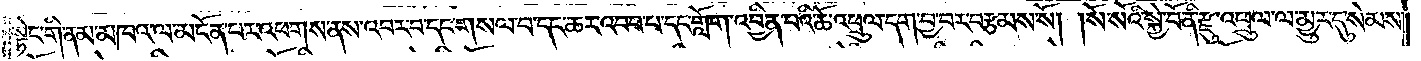སྟེང་གི་ནམ་མཁའ་ལ་མངོན་པར་འཕགས་ནས་འབར་བ་དང་གསལ་བ་དང་ཆར་འབབ་པ་དང་གློག་འབྱིན་པའི་ཆོ་འཕྲུལ་དག་བྱ་བར་བརྩམས་སོ། །སོ་སོའི་སྐྱེ་བོ་ནི་རྫུ་འཕྲུལ་ལ་མྱུར་དུ་སེམས་
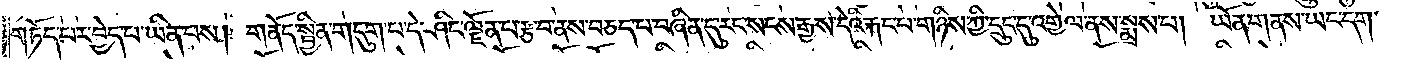གཏོད་པར་བྱེད་པ་ཡིན་པས། གནོད་སྦྱིན་གདུག་པ་དེ་ཤིང་ལྗོན་པ་རྩ་བ་ནས་བཅད་པ་བཞིན་དུ་རང་སངས་རྒྱས་དེའི་རྐང་པ་གཉིས་ཀྱི་དྲུང་དུ་འགྱེལ་ནས་སྨྲས་པ། ཡོན་གནས་ཡང་དག་
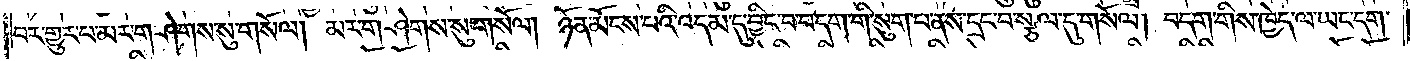པར་གྱུར་པ་མར་གཤེགས་སུ་གསོལ། མར་གཤེགས་སུ་གསོལ། ཉོན་མོངས་པའི་འདམ་དུ་བྱིང་བ་བདག་གི་སུག་པ་ནས་དྲང་བ་སྩལ་དུ་གསོལ། བདག་གིས་ཁྱེད་ལ་ཡང་དག་
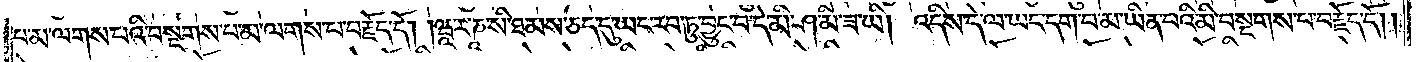པ་མ་ལགས་པའི་བསྔགས་པ་མ་ལགས་པ་བརྗོད་དོ། །ཝཱ་ར་ཎཱ་སི་ཐམས་ཅད་དུ་ཡང་རབ་ཏུ་བྱུང་བ་དེ་མི་ཤ་མི་ཟ་ཡི། འདིས་དེ་ལ་ཡང་དག་པ་མ་ཡིན་པའི་མི་བསྔགས་པ་བརྗོད་དོ། །
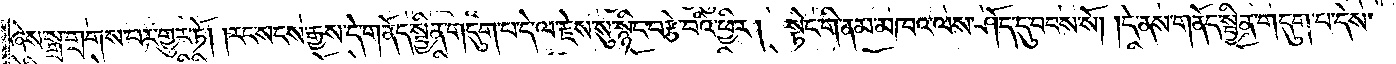ཞེས་སྒྲ་གྲགས་པར་གྱུར་ཏོ། །རང་སངས་རྒྱས་དེ་གནོད་སྦྱིན་གདུག་པ་དེ་ལ་རྗེས་སུ་སྙིང་བརྩེ་བའི་ཕྱིར། སྟེང་གི་ནམ་མཁའ་ལས་ཤོད་དུ་བབས་སོ། །དེ་ནས་གནོད་སྦྱིན་གདུག་པ་དེས་
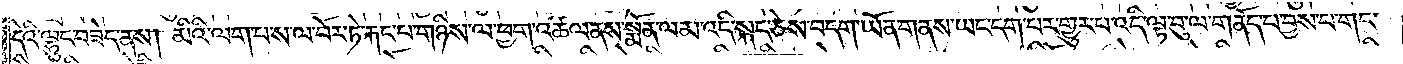དེའི་ལྷུང་བཟེད་ནས། མིའི་ལག་པ་ས་ལ་བོར་ཏེ་རྐང་པ་གཉིས་ལ་ཕྱག་འཚལ་ནས་སྨོན་ལམ་འདི་སྐད་ཅེས་བདག་ཡོན་གནས་ཡང་དག་པར་གྱུར་པ་འདི་ལྟ་བུ་ལ་གནོད་པ་བྱས་པ་གང་
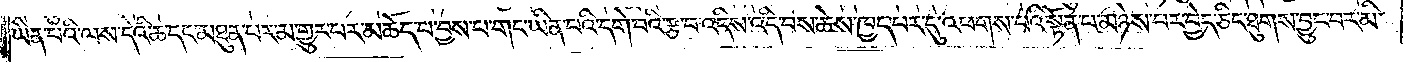ཡིན་པའི་ལས་དེའི་ཆ་དང་མཐུན་པར་མ་གྱུར་བར་མཆོད་པ་བྱས་པ་གང་ཡིན་པའི་དགེ་བའི་རྩ་བ་འདིས་འདྲི་བས་ཆེས་ཁྱད་པར་དུ་འཕགས་པའི་སྟོན་པ་མཉེས་པར་བྱེད་ཅིང་ཐུགས་བྱུང་བར་མི་
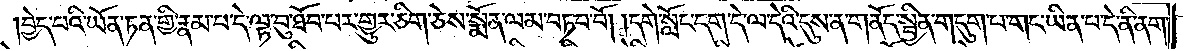བྱེད་པའི་ཡོན་ཏན་གྱི་རྣམ་པ་དེ་ལྟ་བུ་ཐོབ་པར་གྱུར་ཅིག་ཅེས་སྨོན་ལམ་བཏབ་བོ། །དགེ་སློང་དག་དེ་ལ་དེའི་དུས་ན་གནོད་སྦྱིན་གདུག་པ་གང་ཡིན་པ་དེ་ནི་ནག་
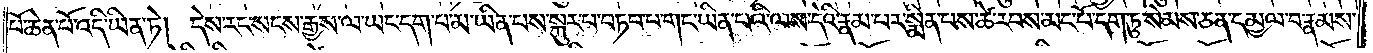པོ་ཆེན་པོ་འདི་ཡིན་ཏེ། དེས་རང་སངས་རྒྱས་ལ་ཡང་དག་པ་མ་ཡིན་པས་སྐུར་པ་བཏབ་པ་གང་ཡིན་པའི་ལས་དེའི་རྣམ་པར་སྨིན་པས་ཚེ་རབས་མང་པོ་དག་ཏུ་སེམས་ཅན་དམྱལ་བ་རྣམས་
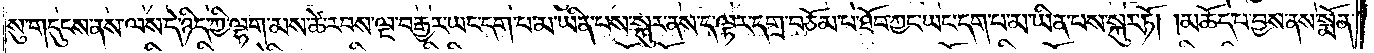སུ་གདུངས་ནས་ལས་དེ་ཉིད་ཀྱི་ལྷག་མས་ཚེ་རབས་ལྔ་བརྒྱར་ཡང་དག་པ་མ་ཡིན་པས་སྐུར་ནས་ད་ལྟར་དགྲ་བཅོམ་པ་ཐོབ་ཀྱང་ཡང་དག་པ་མ་ཡིན་པས་སྐུར་ཏོ། །མཆོད་པ་བྱས་ནས་སྨོན་
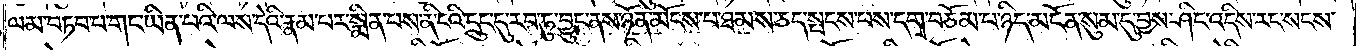ལམ་བཏབ་པ་གང་ཡིན་པའི་ལས་དེའི་རྣམ་པར་སྨིན་པས་ནི་ངའི་དྲུང་དུ་རབ་ཏུ་བྱུང་ནས་ཉོན་མོངས་པ་ཐམས་ཅད་སྤངས་པས་དགྲ་བཅོམ་པ་ཉིད་མངོན་སུམ་དུ་བྱས་ཤིང་འདིས་རང་སངས་
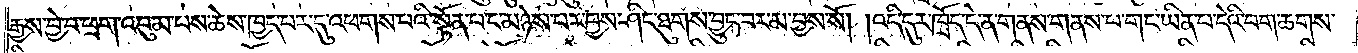རྒྱས་བྱེ་བ་ཕྲག་འབུམ་པས་ཆེས་ཁྱད་པར་དུ་འཕགས་པའི་སྟོན་པ་ང་མཉེས་པར་བྱས་ཤིང་ཐུགས་བྱུང་བར་མ་བྱས་སོ། །འདི་དུར་ཁྲོད་དེ་ན་གནས་གནས་པ་གང་ཡིན་པ་དེའི་བག་ཆགས་
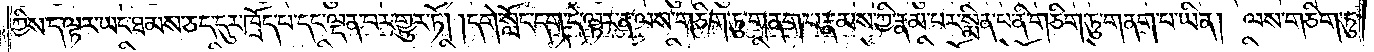ཀྱིས་ད་ལྟར་ཡང་ཐམས་ཅད་དུར་ཁྲོད་པ་དང་ལྡན་པར་གྱུར་ཏོ། །དགེ་སློང་དག་དེ་ལྟར་ན་ལས་གཅིག་ཏུ་གནག་པ་རྣམས་ཀྱི་རྣམ་པར་སྨིན་པ་ནི་གཅིག་ཏུ་གནག་པ་ཡིན། ལས་གཅིག་ཏུ་
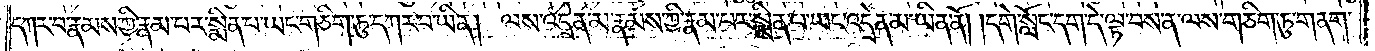དཀར་བ་རྣམས་ཀྱི་རྣམ་པར་སྨིན་པ་ཡང་གཅིག་ཏུ་དཀར་བ་ཡིན། ལས་འདྲེན་མ་རྣམས་ཀྱི་རྣམ་པར་སྨིན་པ་ཡང་འདྲེན་མ་ཡིན་ནོ། །དགེ་སློང་དག་དེ་ལྟ་བས་ན་ལས་གཅིག་ཏུ་གནག་
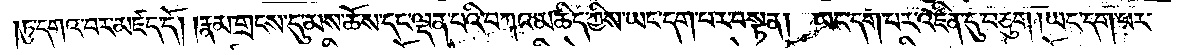ཏུ་དགའ་བར་མཛད་དོ། །རྣམ་གྲངས་དུ་མས་ཆོས་དང་ལྡན་པའི་བཀའ་མཆིད་ཀྱིས་ཡང་དག་པར་བསྟན། ཡང་དག་པར་འཛིན་དུ་བཅུག །ཡང་དག་པར་
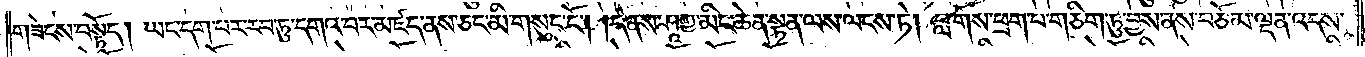གཟེངས་བསྟོད། ཡང་དག་པར་རབ་ཏུ་དགའ་བར་མཛད་ནས་ཅང་མི་གསུང་ངོ༌། །དེ་ནས་ཤཱཀྱ་མིང་ཆེན་སྟན་ལས་ལངས་ཏེ། བླ་གོས་ཕྲག་པ་གཅིག་ཏུ་བྱས་ནས་བཅོམ་ལྡན་འདས་
